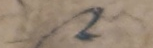༩
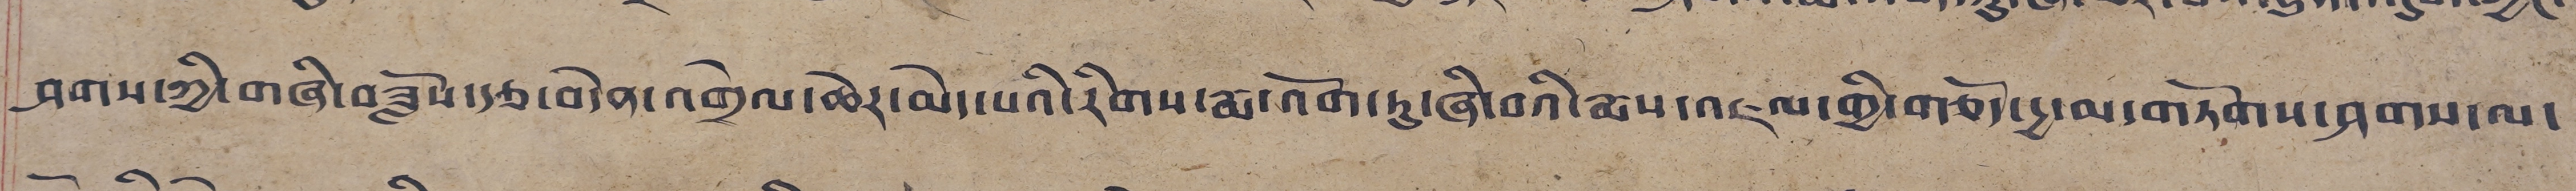ཤགས་ཀྱི་གཞི་བཟློས་རྩ་བདེན་འགྲེལ་ཆེར་མེད་པའི་རིགས་རྨ་འོག་ཏུ་ཞི་བའི་རྨས་འཇལ་གྱི་གཅོད་དྱ་མ་གཏོགས་ཤགས་ལ་
